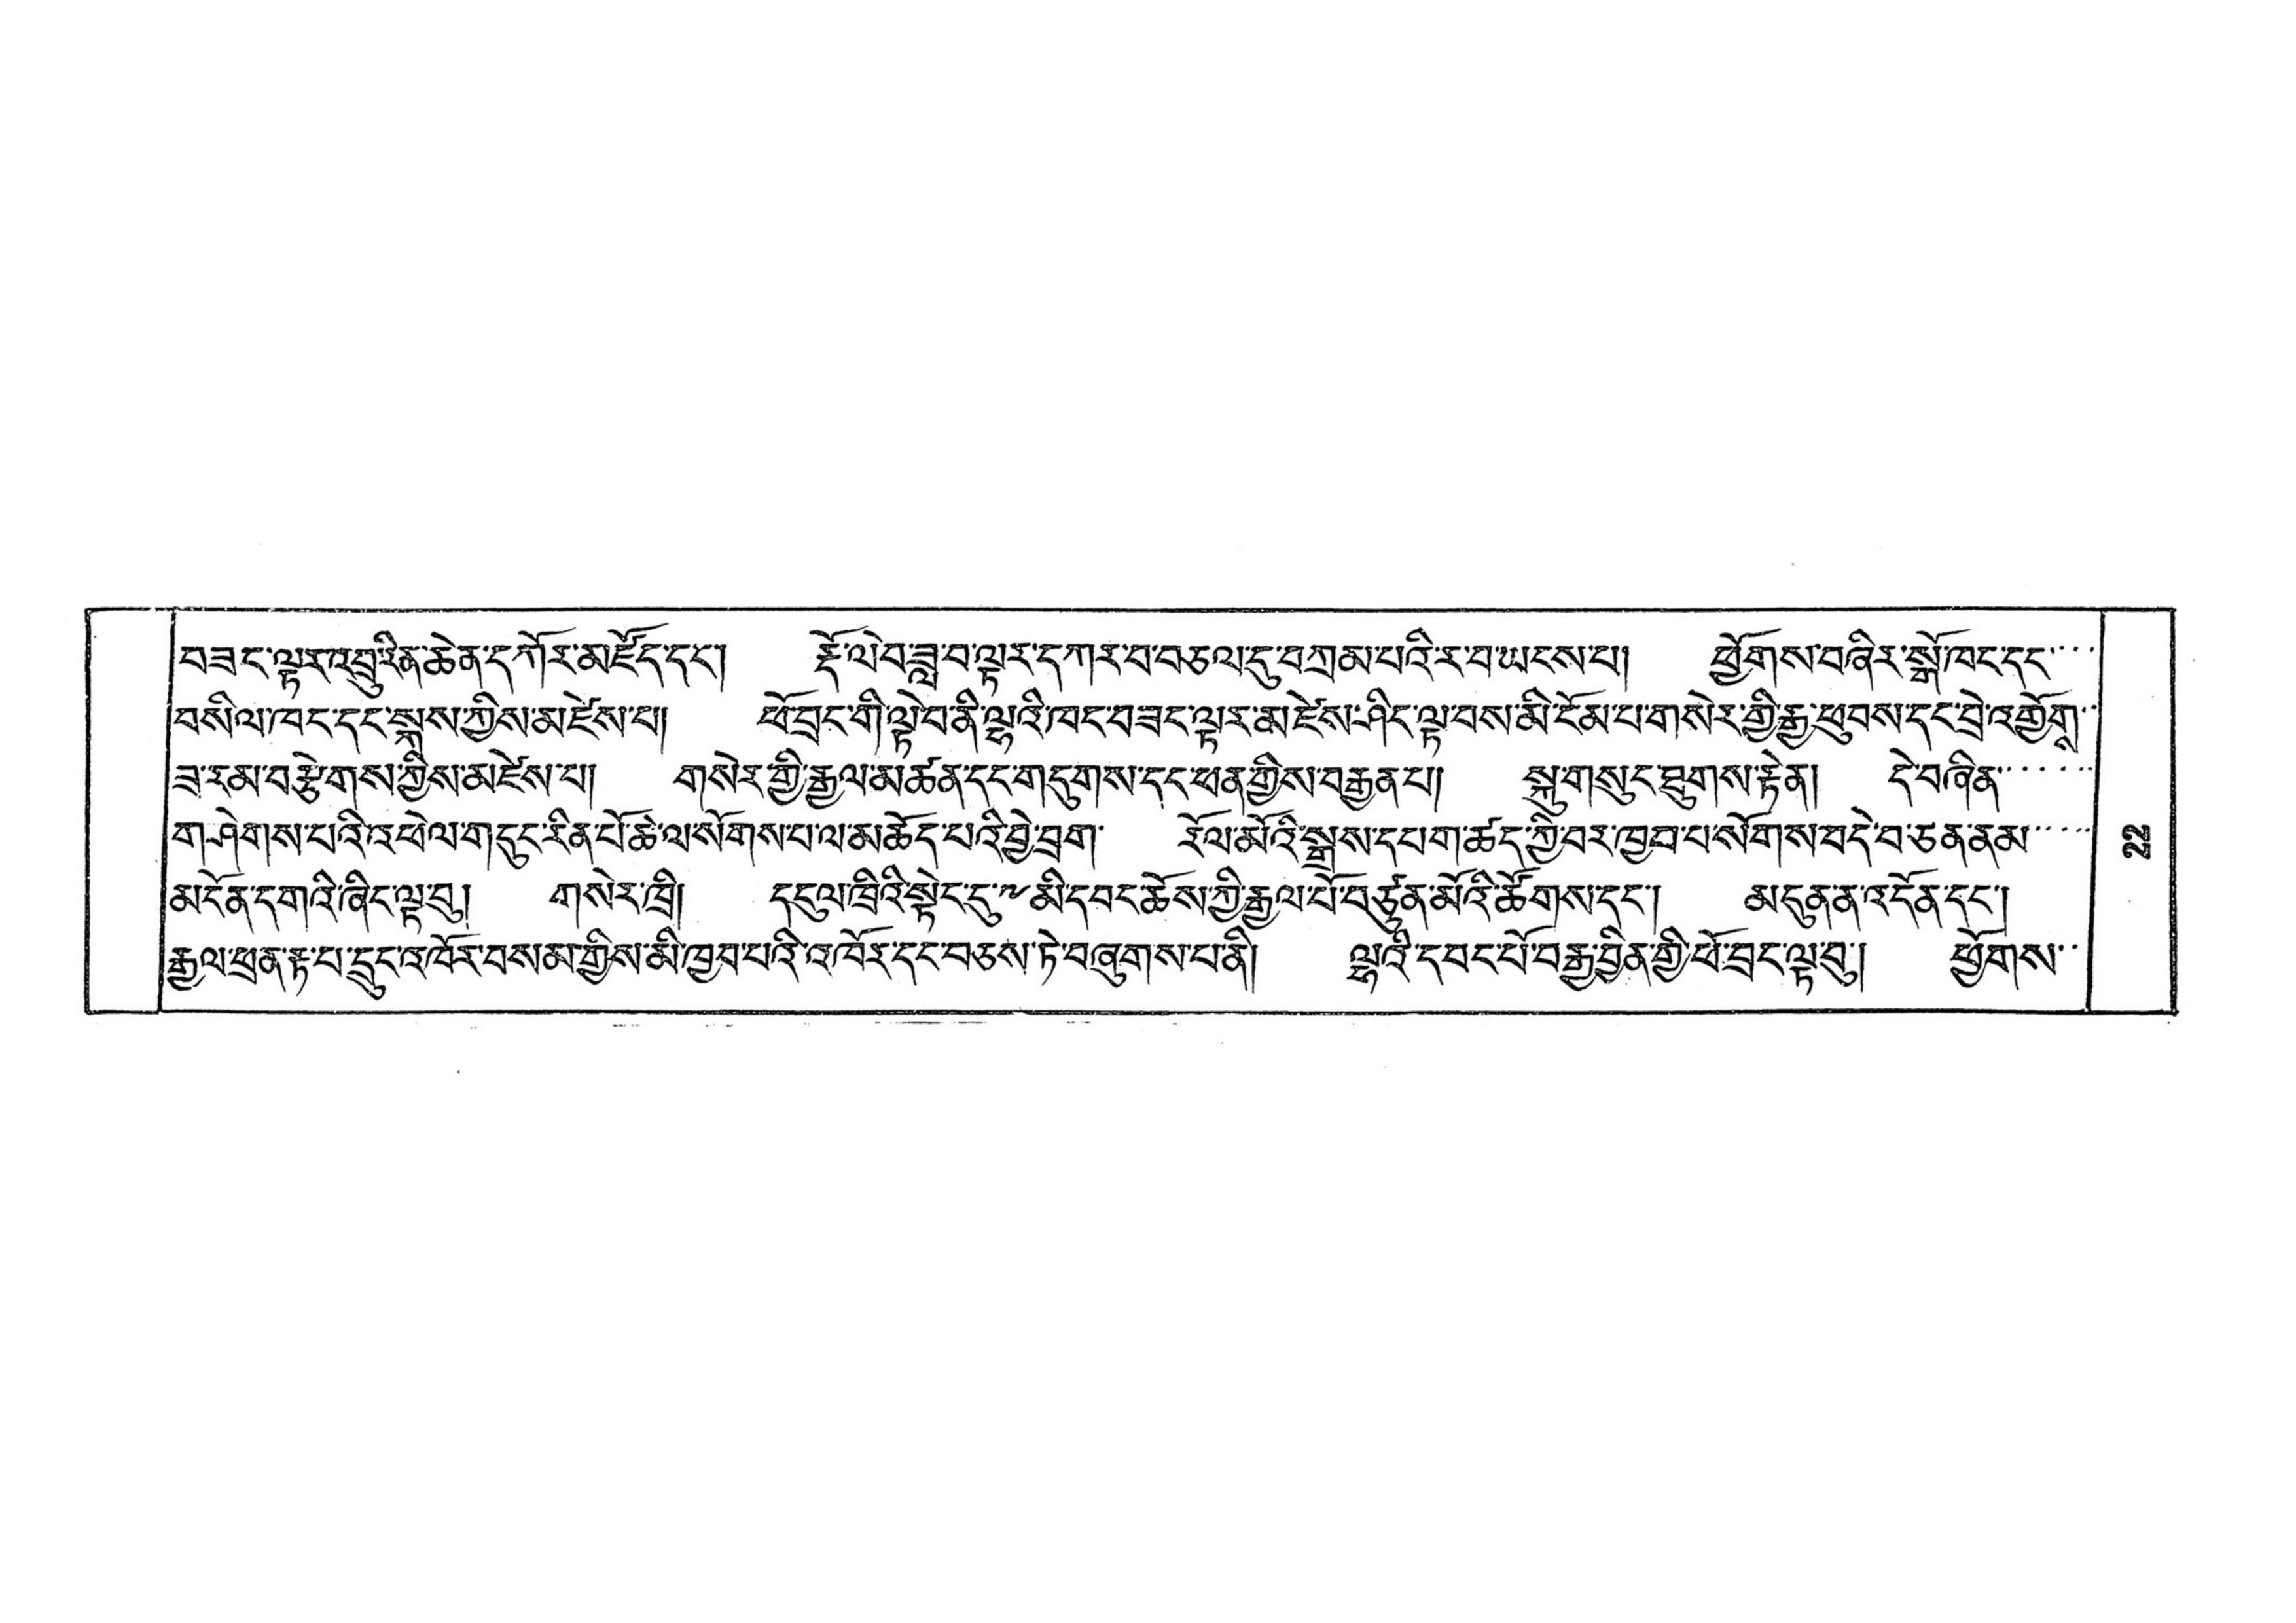བཟང་ལྟར་འབྲུ་རིན་ཆེན་དཀོར་མཛོད་དང་། རྡོ་ལེབ་ཟླ་བ་ལྟར་དཀར་བ་བཅལ་དུབཀྲམ་པའི་ར་བ་ཡངས་པ། ཕྱོགས་བཞིར་སྒོ་ཁང་དང་་་
བསིལ་ཁང་དང་སྐས་ཀྱིས་མཛེས་པ། ཕོ་བྲང་གི་ལྟེབ་ནི་ལྷའི་ཁང་བཟང་ལྟར་མཛེས་ཤིང་ལྟ་བས་མི་ངོམ་པ་གསེར་གྱི་རྒྱ་ཕུབས་དང་བྲེ་འགྱོགས་་
ཟ་རམ་བརྩེགས་ཀྱིས་མཛེས་པ། གསེར་གྱི་རྒྱལ་མཚན་དང་གདུགས་དང་ཕན་གྱིས་བརྒྱན་པ། སྐུ་གསུང་ཐུགས་རྟེན། དེ་བཞིན་་་་་་
གཤེགས་པའི་འཕེལ་གདུང་རིན་པོ་ཆེ་ལ་སོགས་པ་ལ་མཆོད་པའི་བྱེ་བྲག་ རོལ་མོའི་སྒྲས་དཔག་ཚད་ཀྱི་བར་ཁྱབ་པ་སོགས་བདེ་བ་ཅན་ནམ་་་་་
མདོན་དགའི་ཞིད་ལྟ་བུ། གསེར་ཁྲི། དངུལ་ཁྲིའི་སྟེང་དུ་༸ མི་དབང་ཆོས་ཀྱི་རྒྱལ་པོ་བཙུན་མོའི་ཚོགས་དང་། མདུན་ན་འདོན་དང་།
རྒྱལ་ཕྲན་རྟ་པ་དྲུང་འཁོར་བསམ་གྱིས་མི་ཁྱབ་པའི་འཁོར་དང་བཅས་ཏེ་བཞུགས་པ་ནི། ལྷའི་དབང་པོ་བརྒྱ་བྱིན་གྱི་ཕོ་བྲང་ལྟ་བུ་། ཕྱོགས་་
